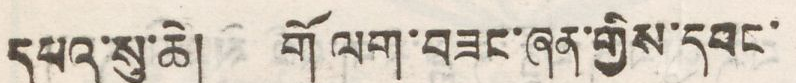དཔའ་སུ་ཆེ། གོ ལག་བཟང་ཞན་གྱིས་དབང་
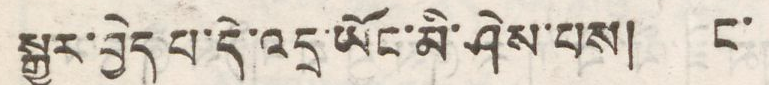སྒྱུར་བྱེད་པ་དེ་འདྲ་ཡོང་མི་ཤེས་པས། ང་
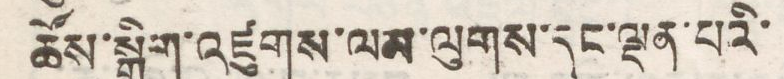ཆོས་སྒྲིག་འཛུགས་ལས་ལུགས་དང་ལྡན་པའི་
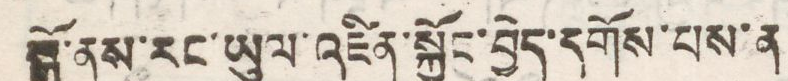སྒོ་ནས་རང་ཡུལ་འཛིན་སྐྱོང་བྱེད་དགོས་པས་ན
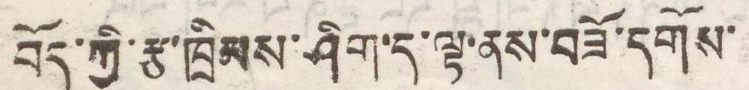བོད་ཀྱི་རྩ་ཁྲིམས་ཤིག་ད་ལྟ་ནས་བཟོ་དགོས་
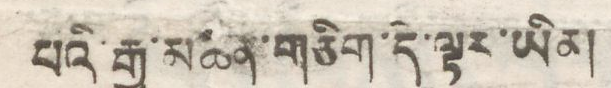པའི་རྒྱུ་མཚན་གཅིག་དེ་ལྟར་ཡིན།
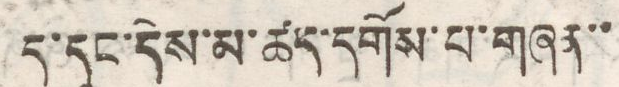ད་དུང་དེས་མ་ཚད་དགོས་པ་གཞན་་
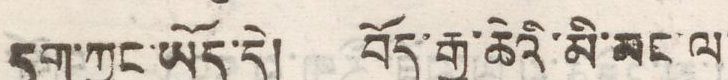དག་ཀྱང་ཡོད་དེ། བོད་རྒྱ་ཆེའི་མི་མང་ལ་
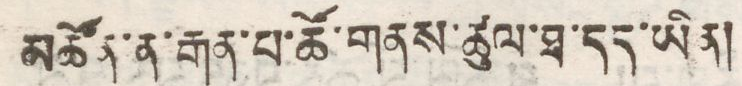མཚོན་ན་རྒན་པ་ཆོ་གནས་ཚུལ་ཐ་དད་ཡིན།
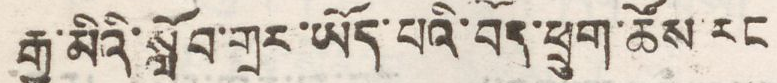རྒྱ་མིའི་སློབ་གྲར་ཡོད་པའི་བོད་ཕྲུག་ཚོས་རང
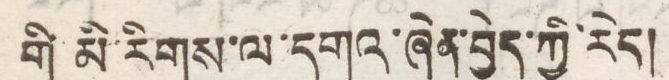གི་མི་རིགས་ལ་དགའ་ཞེན་བྱེད་ཀྱི་རེད།
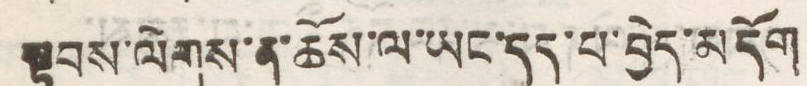སྟབས་ལེགས་ན་ཆོས་ལ་ཡང་དད་པ་བྱེད་མདོག
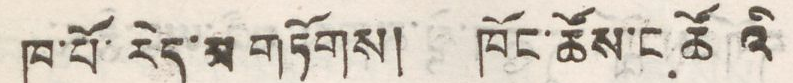ཁ་པོ་རེད་མ་གཏོགས། ཁོང་ཚོས་ང ཚོའི
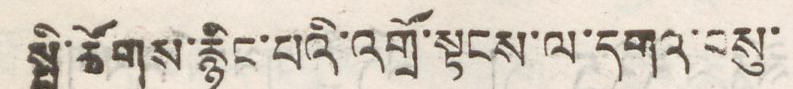སྤྱི་ཚོགས་རྙིང་པའི་འགྲོ་སྟངས་ལ་དགའ་བསུ་
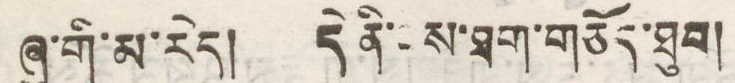ཞུ་གི་མ་རེད། དེ ནི་ངས་ཐག་གཅོད་ཐུབ།
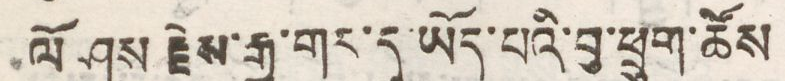ལོ ཤས རྗེས་རྒྱ་གར་དུ་ཡོད་པའི་བྱ་ཕྲུག་ཚོས
